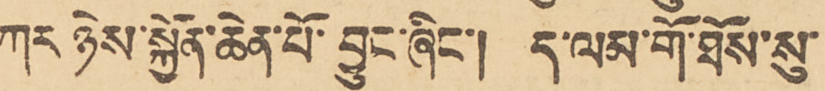ཀར ཉེས་སྐྱོན་ཆེན་པོ་བྱུང་ཞིང་། ད་ལམ་གོ་ཐོས་སུ་
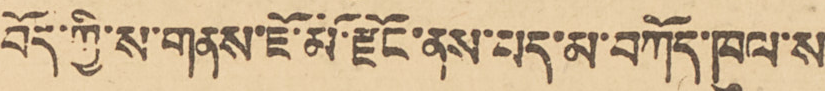བོད་ཀྱི་ས་གནས་ཇོ་མོ་རྫོང་ནས་པད་མ་བཀོད་ཁུལ་ས་
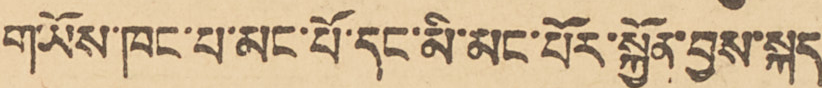གཡོས་ཁང་པ་མང་པོ་དང་མི་མང་པོར་སྐྱོན་བྱས་སྐད་
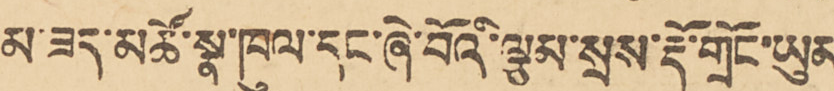མ་ཟད་མཚོ་སྣ་ཁུལ་དང་ཞེ་བོའི་ལྕམ་སྲས་རྡོ་གྲོང་ཡུམ
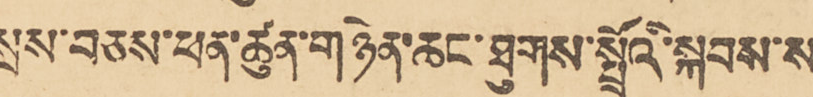སྲས་བཅས་ཕན་ཚུན་གཉེན་ཆང་ཐུགས་སྤྲོའི་སྐབས་ས་
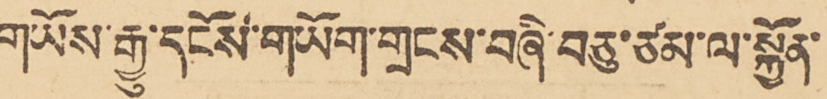གཡོས་རྒྱུ་དངོས་གཡོག་གྲངས་བཞི་བཅུ་ཙམ་ལ་སྐྱོན་
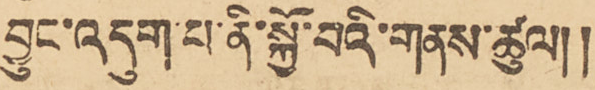བྱུང་འདུག་པ་ནི་སྐྱི་བའི་གནས་ཚུལ།།
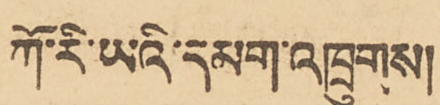ཀོ་རི་ཡའི་དམག་འཁྲུགས།
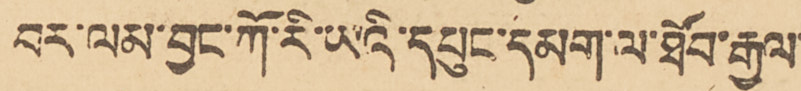བར་ལམ་བྱང་ཀོ་རི་ཡའི་དཔུང་དམག་ལ་ཐོབ་རྒྱལ་
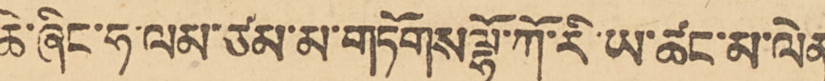ཆེ་ཞིང་ཧ་ལམ་ཙམ་མ་གཏོགས་ལྷོ་ཀོ་རི་ཡ་ཚང་མ་ལེན་
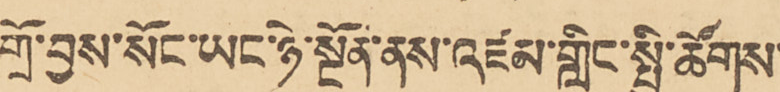གྲོ་བྱས་སོང་ཡང་ཉེ་སྔོན་ནས་འཛམ་གླིང་སྤྱི་ཚོགས་
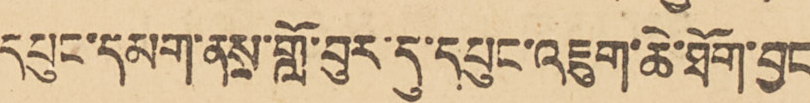དཔུང་དམག་ནས་གློ་བུར་དུ་དཔུང་འཇུག་ཆེ་ཐོག་བྱང་
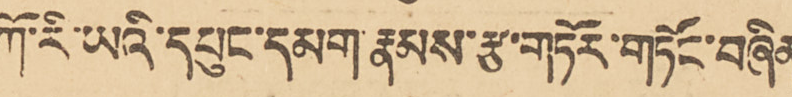ཀོ་རི་ཡའི་དཔུང་དམག་རྣམས་རྩ་གཏོར་གཏོང་བཞིན་
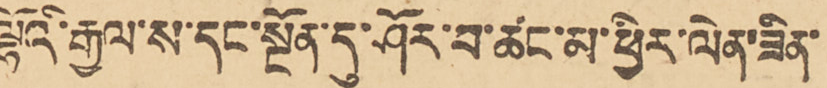ལྷོའི་རྒྱལ་ས་དང་སྔོན་དུ་ཤོར་བ་ཚང་མ་ཕྱིན་ལེན་ཟིན་
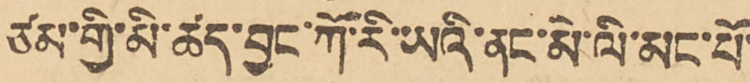ཙམ་གྱི་མི་ཚད་བྱང་ཀོ་རི་ཡའི་ནང་མེ་ནི་མང་པོ་
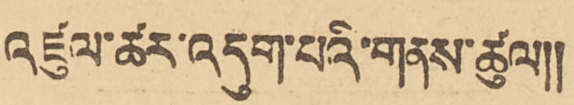འཛུལ་ཚར་འདུག་པའི་གནས་ཚུལ།།
